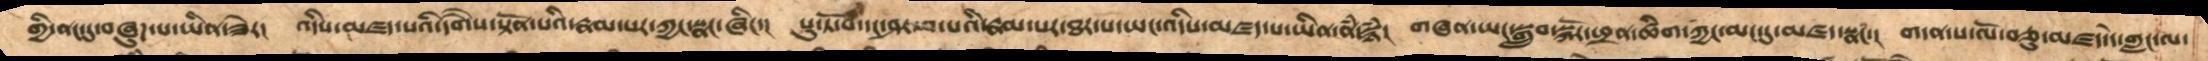གྱི་ནང་དུ་བཞུཌ་པ་ཡིན་ཟེར།  འདིས་མཛད་པའི་དགཻས་སྟོན་པའི་རྣམ་པར་ཀྱང་སྣང་ཞིང་།  པུ་ཏོ་བ་དང་ཤར་བ་པའི་རྣམ་པར་ཐར་པ་ཡང་འདིས་མཛད་པ་ཡིན་ནཾ་སྙཾ།  གཞན་ཡང་སྒྲུབ་སྐོར་ཕྲན་ཚིག་ཀྱང་མང་དུ་མཛད་སྣང་།  གདན་ས་ལོ་བཅུ་མཛད་དེ་གླང་ལ་
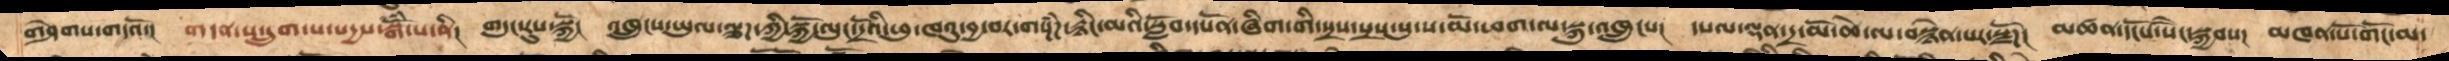གཤེགས་གདའོ།  གདན་ས་དྲུག་པ་སདྱས་སྒོཾ་པ་ནི།  གདུང་རུས་སྐྱོ།  འཁྲུངས་ཡུལ་ལྕཌ་ཀྱི་སྐྱོ་ལུང་དྲོའི་ཕུ་ཁའུ་བྱ་བར་གསྔཌཾ་རྙིང་མའི་སློབ་དཔོན་ཞིག་གི་སྲས་སྲས་སུ་ས་མོ་ཕག་ལ་སྐུ་འཁྲུངས།  དཔལ་ལྡན་དྲ་མོ་ཆེ་ལ་བསྙེན་པར་སྫོཌ།  མཚན་དངོས་སཻང་སྐྱབས།  མཁན་པོ་གོང་མ་
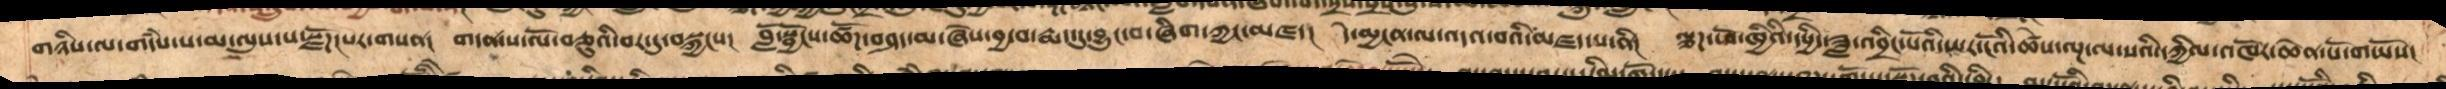གཉིས་ལ་གདཾས་པ་མ་ལུས་པ་སྫོཌ་པར་གསན།  གདན་ས་ལོ་བཅུའི་བར་དུ་བསྐྱངས།  བློ་སྦྱོངས་ཚོཌ་བཤད་མ་ཞེས་བྱ་བ་རྨད་དུ་བྱུང་བ་ཞིག་ཀྱང་མཛད།  དེ་མྱངན་ལ་འདའ་བའི་མཛད་པ་ནི།  ལྕཌ་ཕོ་ཁྱིའི་དཔྱིད་ཟླ་འབྲིང་པོའི་ཡར་ངོའི་ཚེས་ལྔ་ལ་སའི་དཀྱིལ་འཁོར་ཆེན་པོ་གཡོས།
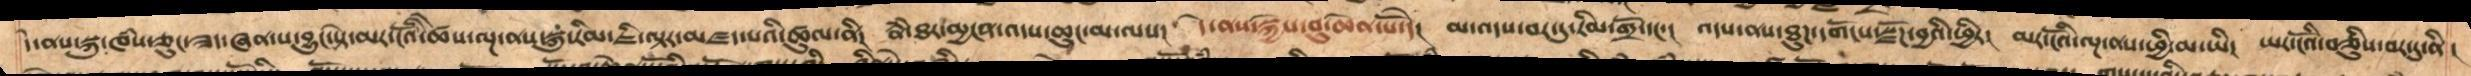དེ་ནས་སྐུ་ཁཾས་ཅུང་ཟད་ཞན་པ་བྱུང་སྟེ་མར་ངོའི་ཚེས་ལྔ་ནས་སྐུ་རིམ་ཇི་ལྟར་མཛད་པའི་ཚུལ་ནི།   རྣཾ་ཐར་མྱངན་འདས་ཆུང་མ་ལས།  དེ་ནས་སྐྱེས་བུ་ཆེན་པོ་དེ།  མ་འདས་བར་དུ་རིམ་གྲོ་དང་།  འདས་ནས་ཐུཌ་དགོངས་སྫོཌ་བྱའི་ཕྱིར།  མར་ངོའི་ལྔ་ནས་ཕྱི་མ་ཡི།  ཡར་ངོའི་བཅིུས་བར་དུ་ནི།
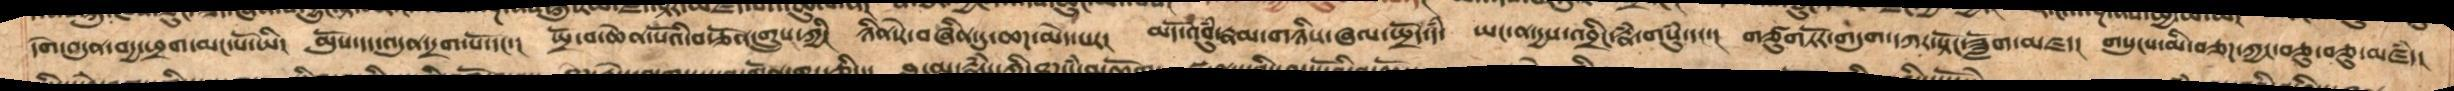དགེ་འདུན་བདྱ་ཕྲག་མང་པོ་ཡི།  མོུས་དང་འདུན་དྲག་པོ་དང་།  སྤྲོ་བ་ཆེན་པོའི་བརྩོན་འགྲུས་ཀྱི།  ཉིན་རེ་བཞིན་དུ་ཆཌ་མེད་པར།  མདོ་འབུཾ་རྣམ་གཉིས་ཞལ་སྤྲོད་དཾ།  ཡང་ན་དྱས་འབྲིང་རྣཾ་གསུཾ་དང་།  གཙུགཏོར་གདུག་དཀར་སྟོང་ཟློག་མཛད། གསུངས་མི་བཅཌ་ཀྱང་བཅུ་བཅུ་མཛེད།
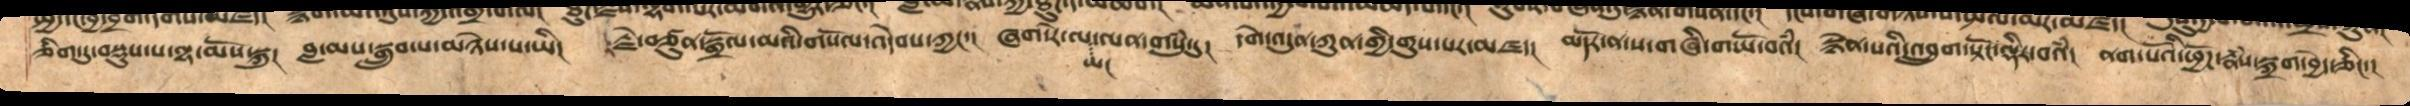ཅིག་དུ་བསྡུས་པ་ལྷ་མོས་སྐུ། བླ་མས་སྒྲུབ་པ་མཉེས་པ་ཡི།  རྗེ་བཙུན་སྒྲོལ་མའི་གསོལ་འདེབས་ཀྱང་།  ཞག་རེ་ལ་ཡང་ལན་གསུཾ་དུ།  དགེ་འདུན་ཀུན་གྱི་གུས་པར་མཛད།  མདོར་ན་ས་གཞི་གཡོ་བའཾ།  སྙེན་པའི་འབྲུག་སྟོང་ལྡིར་བའཾ།  ནག་པོའི་ཕྱོཌ་རྣཾས་སྐྲག་བྱེད་ཅིང་།
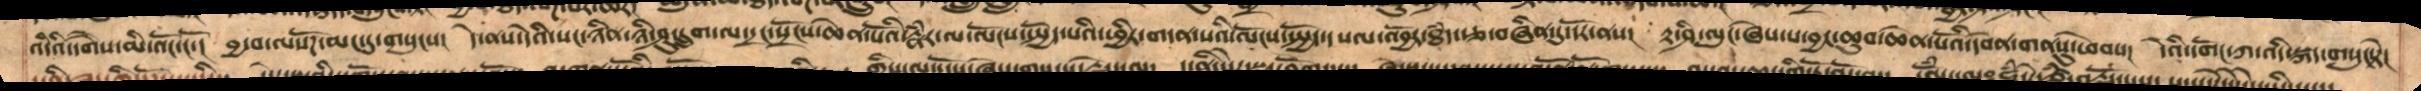འདིའི་དགཻས་མི་འོང་ངོ་།  བྱ་བ་ལསོཌ་མང་དུ་གསུངས།  དེ་ནས་དེའི་སང་ཉིན་ཉི་ཤུ་དྲུག་ལ་དྲང་སོང་ཆེན་པོའི་རྣཾར་ལ་ལོངས་སྤྱོད་པའི་ཕྱིར་གདན་སའི་ལོངས་སྤྱོད་དཔལ་འབྱོར་ཐཾད་རྩ་བཞིན་དུ་དོར་ནས།  རྟ་ཤི་ལུང་ཞེས་པ་བྱང་ཆུབ་ཆེན་པོའི་དབེན་གནསུ་ཕེབས།  དེའི་དགོང་ཀ་འདི་སྐད་གསུང་སྟེ།
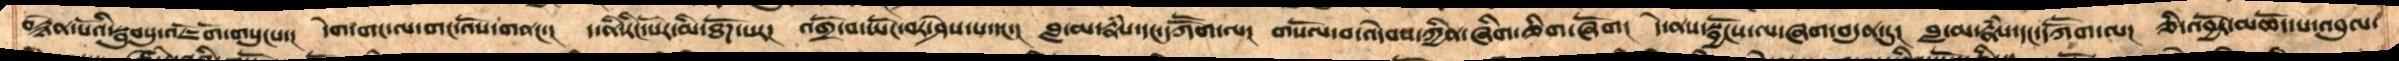བརྙེན་པོའི་སྦུབསུ་འཇོགོ་གསུངས་།  དེག་གང་ལ་གང་འོས་གནང་།  ད་ནི་རིང་པོར་མི་ཐོཌ་པར།  འགྲོ་བ་ཡོང་བར་ཤེས་པ་དང་།  བླ་མ་རྣཾས་དང་དཀཽག་ལ།  གསོལ་བ་འདེབས་ཀྱིན་ཞིག་ཅིག་ཞོག།  དེ་ནས་སྦྱོངས་ལ་ཞག་བདུན་དུ།  བླ་མ་རྣཾས་དང་དཀཽན་ལ།  ཅི་འབྱོར་མཆོད་པ་འབུལ་
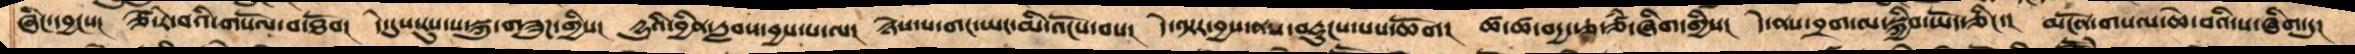ཞིང་དབྱངས།  ཙེ་རེ་བའི་གསོལ་བ་ཐོབ།  དེ་དུས་རུས་པ་སྐུ་གཟུཌ་གྱིས།  དྱུའི་བྱིན་རླབས་བྱས་པ་ལ།  ཉེས་པ་གང་ཡང་མི་འོངས་བས།  དེ་ལྟར་བྱས་ནས་བརྡུངས་པས་ཆོག།  ཚ་ཚ་བདྱ་རྩ་ཙཾ་ཞིག་གྱིས།  དེ་ནས་བྲག་ལ་སྐྱིབ་ཡོད་ཅིང་།  མངོན་གསལ་ཆེ་བའི་ས་ཞིག་དུ།
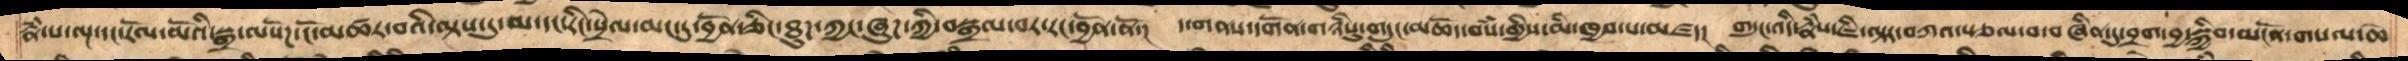རྣཾ་པ་ལྔ་དང་རོལ་མོའི་སྒྲ་ལསོཌ་པ་ངོ་མཚར་བའི་ལྟས་དུ་མ་དང་རིང་སྲེལ་མང་དུ་བྱོན་ཅིང་ཐུཌ་ཀྱང་ཞུཌ་ཀྱིས་བསྒྲལ་བར་རང་བྱོན་ནོ།  ད་གནས་དགོན་གཉིསུ་གདུང་མཆོད་བསཾ་གྱིས་མི་ཁྱབ་པ་མཛད།  གདུང་འདི་རྣཾས་ཇི་ལྟར་བཀའ་སྩལ་བ་བཞིན་དུ་བྲག་བྱ་སྐྱིབ་མངོན་གསལ་ཆེ
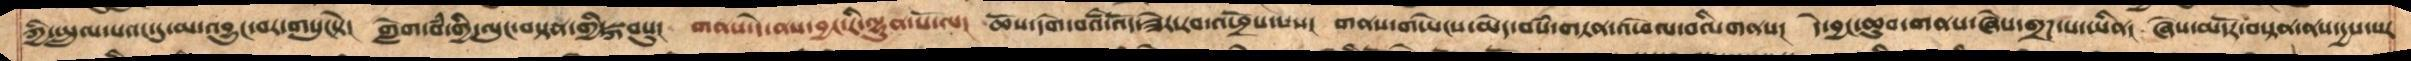ཀྱི་སྤྲུལ་པའང་དུ་མ་འབྱུང་བར་གསུངསྟེ།  གླེག་བཾ་གྱི་ལུང་བསྟན་གྱི་སྐབསུ།  གནས་དེ་ནས་བྱང་རི་ལྷུན་པོ་ལ།  ཆོས་དགེ་བའི་འོད་ཟེར་རབ་འཕྲོས་པས།   གནས་གཡེངས་མེད་བསཾ་གཏན་འཕེལ་བའི་གནས།  དེ་བྱང་ཆུབ་གནས་ཞེས་གྲཌ་པ་ཡིན།  ཞེས་མདོར་བསྟན་ནས་དྱས་པར
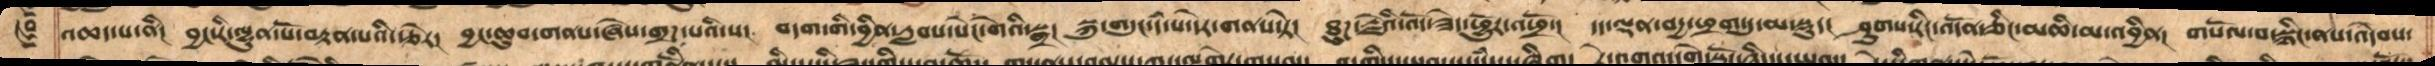འཆད་པ་ནི།  བྱང་རི་ལྷུན་པོ་བརྟན་པའི་རྩེར། བྱང་ཆུབ་གནས་ཞེས་གྲཌ་པའི་ས། བདག་གི་བྱིན་རླབས་སེང་གེའི་སྒྲ། སྐུ་གདུང་དཾ་པ་དེར་གནས་སྟེ།  ཐུཌ་རྗེའི་འོད་ཟེར་ཕྱོུར་འཕྲོ་།  དད་ལྡན་བདྱ་ཕྲག་དུ་མ་སྡུད།  ཤུགས་རིང་འདོན་ཅིང་མཆི་མ་འབྱིན། གསོལ་བ་སྙིང་ནས་འདེབས་
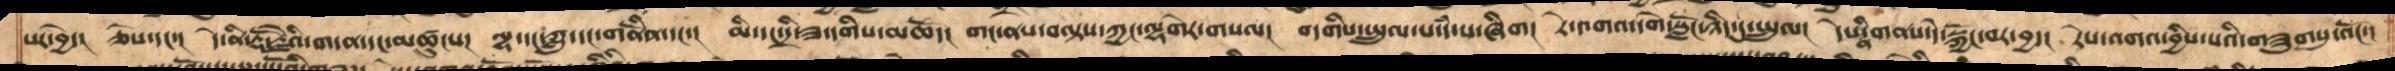པར་བྱེད། ཅེས་དང་། དེ་ནི་རྡོ་རྗེའི་གདན་དང་མཚུངས། ལྷ་དང་ཀླུ་དང་གནོིན་དང་། མི་དང་དྲི་ཟ་དགིས་མཆོད། གང་ནས་བལྟས་ཀྱང་ལྷགེར་གསལ། བདགིས་སྤྲུལ་པ་དཾ་པ་ཞིག། རེ་འགའ་དགེ་སློང་ཉིད་དུ་སྤྲུལ། དེས་ནི་གནས་དེ་སྐྱོང་བར་བྱ་། རེས་འགའ་བྱིས་པའི་གཟུགསུ་འོང་།
